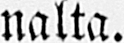nalta.
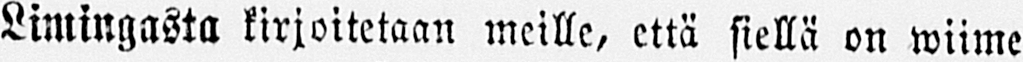Limingasta kirjoitetaan meille, että siellä on wiime
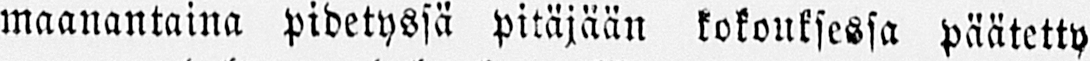maanantaina pidetyssä pitäjään kokouksessa päätetty
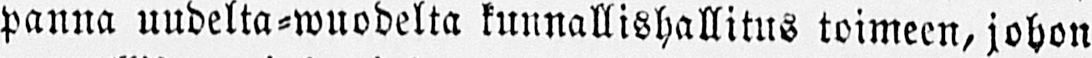panna uudelta-wuodelta kunnallishallitus toimeen, johon
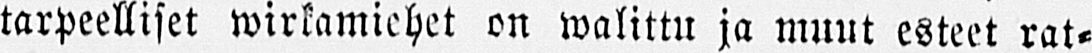tarpeelliset wirkamiehet on walittu ja muut esteet rat-
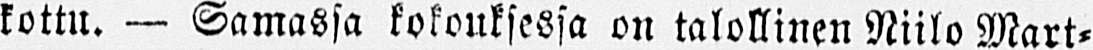kottu. — Samassa kokouksessa on talollinen Niilo Mart-
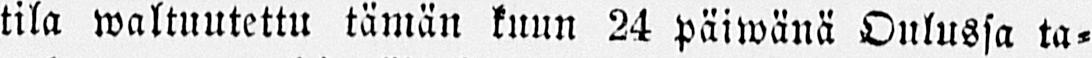tila waltuutettu tämän kuun 24 päiwänä Oulussa ta-
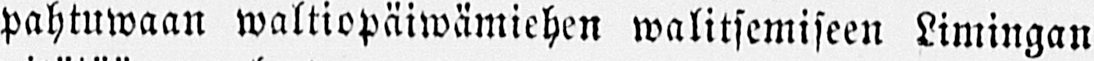pahtuwaan waltiopäiwämiehen walitsemiseen Limingan
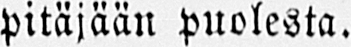pitäjään puolesta.
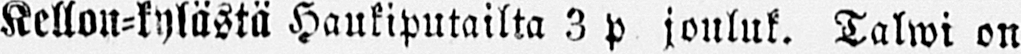Kellon-kylästä Haukiputailta 3 p jouluk. Talwi on
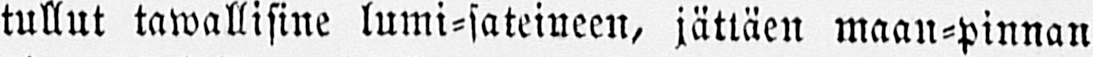tullut tawallisine lumi-sateineen, jättäen maan-pinnan
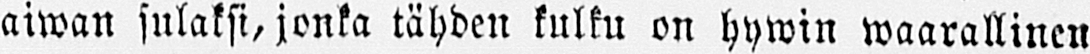aiwan sulaksi, jonka tähden kulku on hywin waarallinen
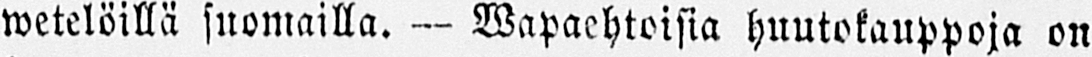wetelöillä suomailla. — Wapaehtoisia huutokauppoja on
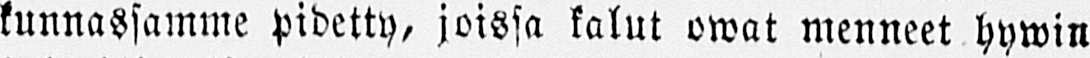kunnassamme pidetty, joissa kalut owat menneet hywin
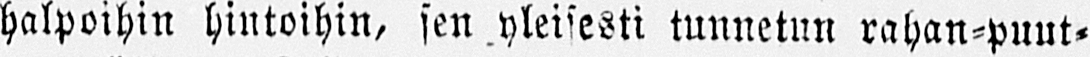halpoihin hintoihin, sen yleisesti tunnetun rahan-puut-
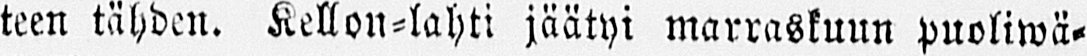teen tähden. Kellon-lahti jäätyi marraskuun puoliwä-
